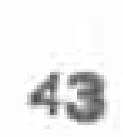43
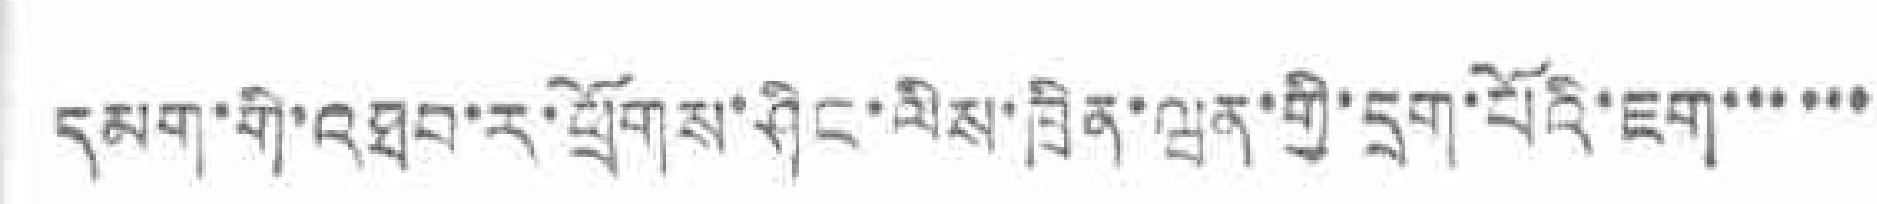དམག་ག་འཐབ་ར་ཕྲོགས་ཤིང་ལིས་ཁྲིན་ཝན་གྱི་དྲག་པོའི་ཇག་་་་་་
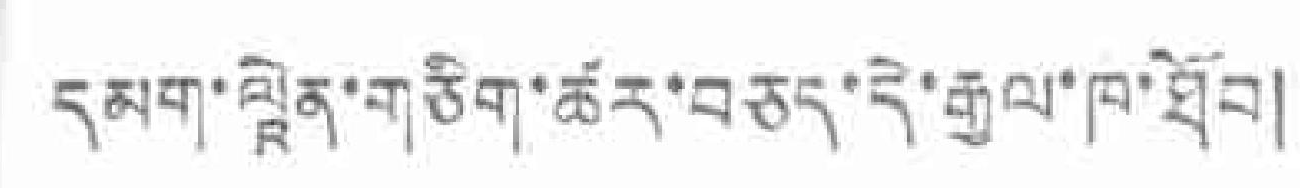དམག་ལཱེན་གཅིག་ཚར་བཅད་དེ་རྒྱལ་ཁ་ཐོབ།
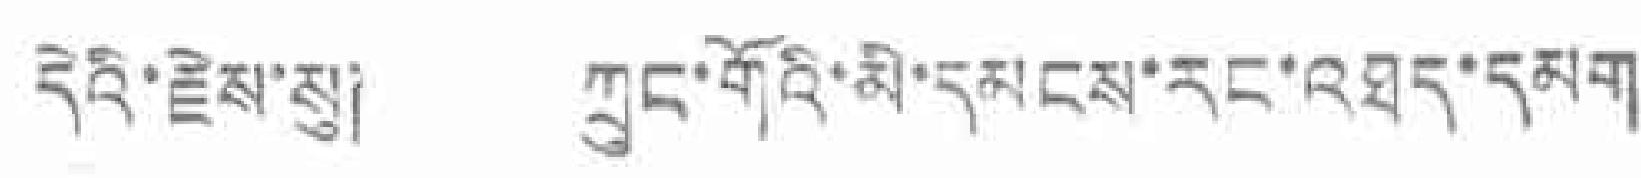དོའི་རྗེས་སུ། ཀྲུང་གོའི་མི་དམངས་རང་འཐད་དམག
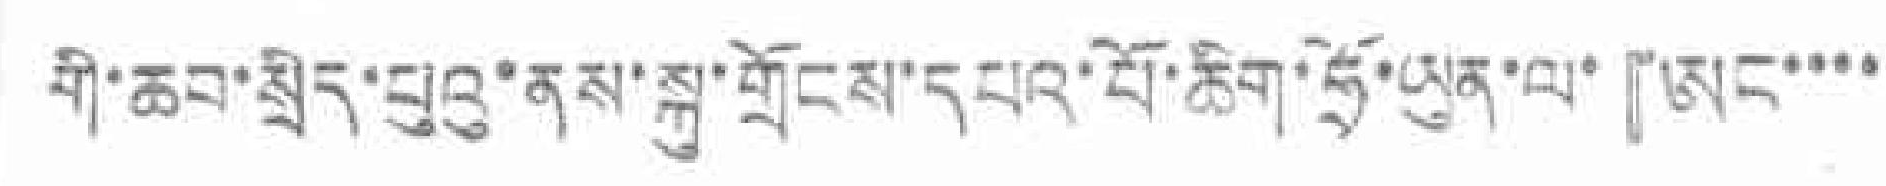གི་ཆབ་སྲིད་པུའུ་ནས་སྐུ་གྲོངས་དཔའ་པོ་ཆིག་ཧྲོ་ཡུན་ལ་『ཨང་་་་
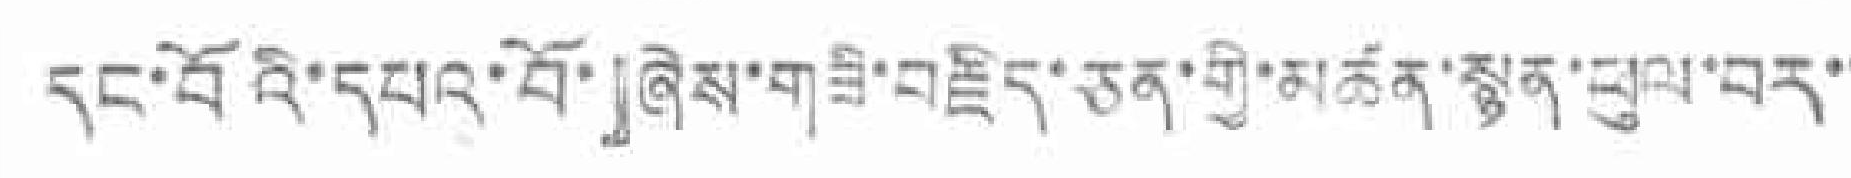དང་བོའི་དཔའ་བོ་』ཞེས་གཟི་བརྗིད་ཅན་གྱི་མཚན་སྙན་ཕུལ་བར་་
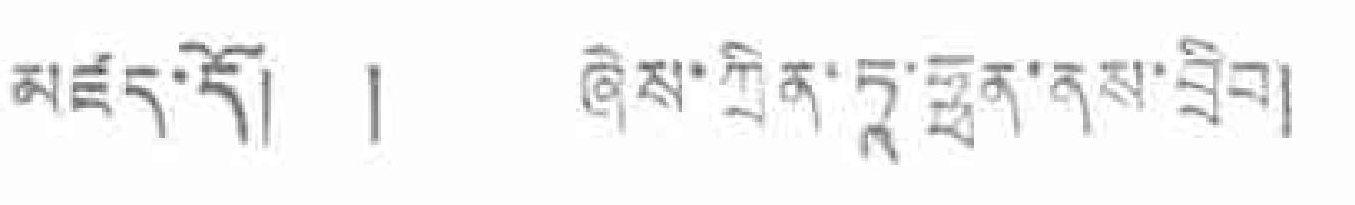མཛད་དོ། ། ཞེས་ཀྲིན་ཏཱ་ཧྥན་ནས་བྲིབ།
